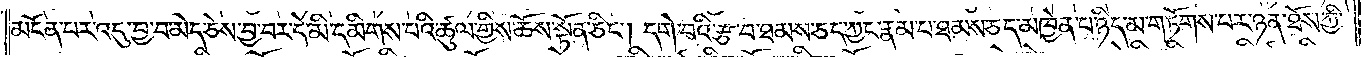མངོན་པར་འདུ་བྱ་བ་མེད་ཅེས་བྱ་བར་དེ་མི་དམིགས་པའི་ཚུལ་གྱིས་ཆོས་སྟོན་ཅིང༌། དགེ་བའི་རྩ་བ་ཐམས་ཅད་ཀྱང་རྣམ་པ་ཐམས་ཅད་མཁྱེན་པ་ཉིད་མ་གཏོགས་པར་ཉན་ཐོས་ཀྱི་
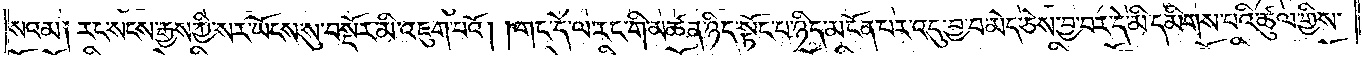སའམ༑ རང་སངས་རྒྱས་ཀྱི་སར་ཡོངས་སུ་བསྔོར་མི་འཇུག་པའོ། །གང་དེ་ལ་རང་གི་མཚན་ཉིད་སྟོང་པ་ཉིད་མངོན་པར་འདུ་བྱ་བ་མེད་ཅེས་བྱ་བར་དེ་མི་དམིགས་པའི་ཚུལ་གྱིས་
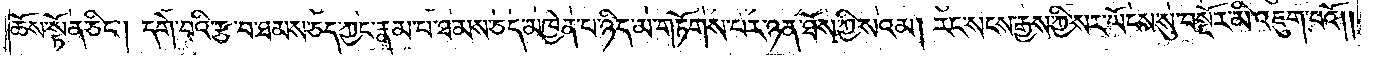ཆོས་སྟོན་ཅིང༌། དགེ་བའི་རྩ་བ་ཐམས་ཅད་ཀྱང་རྣམ་པ་ཐམས་ཅད་མཁྱེན་པ་ཉིད་མ་གཏོགས་པར་ཉན་ཐོས་ཀྱི་སའམ། རང་སངས་རྒྱས་ཀྱི་སར་ཡོངས་སུ་བསྔོར་མི་འཇུག་པའོ། །
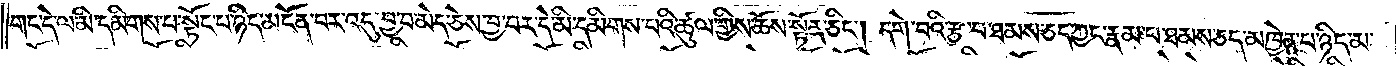གང་དེ་ལ་མི་དམིགས་པ་སྟོང་པ་ཉིད་མངོན་པར་འདུ་བྱ་བ་མེད་ཅེས་བྱ་བར་དེ་མི་དམིགས་པའི་ཚུལ་གྱིས་ཆོས་སྟོན་ཅིང༌། དགེ་བའི་རྩ་བ་ཐམས་ཅད་ཀྱང་རྣམ་པ་ཐམས་ཅད་མཁྱེན་པ་ཉིད་མ་
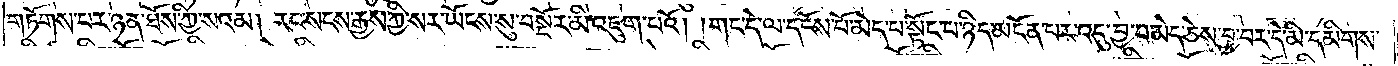གཏོགས་པར་ཉན་ཐོས་ཀྱི་སའམ། རང་སངས་རྒྱས་ཀྱི་སར་ཡོངས་སུ་བསྔོར་མི་འཇུག་པའོ། །གང་དེ་ལ་དངོས་པོ་མེད་པ་སྟོང་པ་ཉིད་མངོན་པར་འདུ་བྱ་བ་མེད་ཅེས་བྱ་བར་དེ་མི་དམིགས་
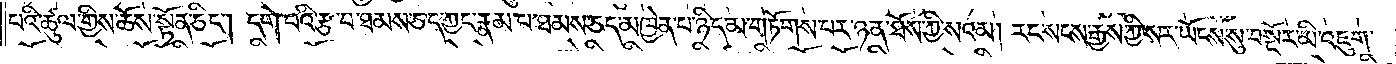པའི་ཚུལ་གྱིས་ཆོས་སྟོན་ཅིང༌། དགེ་བའི་རྩ་བ་ཐམས་ཅད་ཀྱང་རྣམ་པ་ཐམས་ཅད་མཁྱེན་པ་ཉིད་མ་གཏོགས་པར་ཉན་ཐོས་ཀྱི་སའམ། རང་སངས་རྒྱས་ཀྱི་སར་ཡོངས་སུ་བསྔོར་མི་འཇུག་
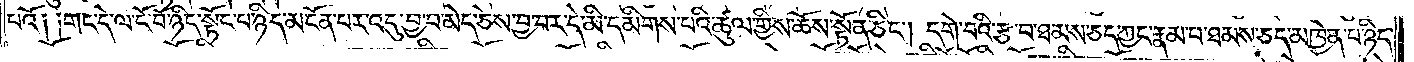པའོ༑ ༑གང་དེ་ལ་ངོ་བོ་ཉིད་སྟོང་པ་ཉིད་མངོན་པར་འདུ་བྱ་བ་མེད་ཅེས་བྱ་བར་དེ་མི་དམིགས་པའི་ཚུལ་གྱིས་ཆོས་སྟོན་ཅིང༌། དགེ་བའི་རྩ་བ་ཐམས་ཅད་ཀྱང་རྣམ་པ་ཐམས་ཅད་མཁྱེན་པ་ཉིད་
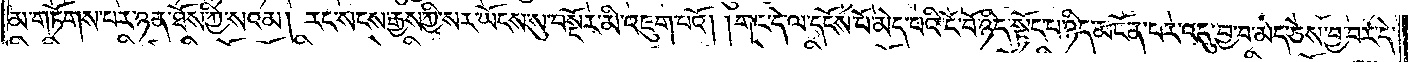མ་གཏོགས་པར་ཉན་ཐོས་ཀྱི་སའམ། རང་སངས་རྒྱས་ཀྱི་སར་ཡོངས་སུ་བསྔོར་མི་འཇུག་པའོ། །གང་དེ་ལ་དངོས་པོ་མེད་པའི་ངོ་བོ་ཉིད་སྟོང་པ་ཉིད་མངོན་པར་འདུ་བྱ་བ་མེད་ཅེས་བྱ་བར་དེ་
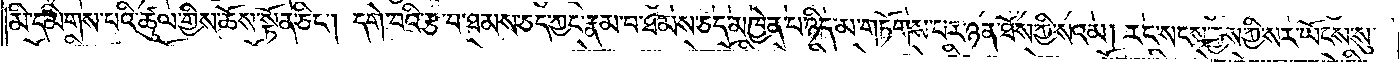མི་དམིགས་པའི་ཚུལ་གྱིས་ཆོས་སྟོན་ཅིང༌། དགེ་བའི་རྩ་བ་ཐམས་ཅད་ཀྱང་རྣམ་པ་ཐམས་ཅད་མཁྱེན་པ་ཉིད་མ་གཏོགས་པར་ཉན་ཐོས་ཀྱི་སའམ། རང་སངས་རྒྱས་ཀྱི་སར་ཡོངས་སུ་
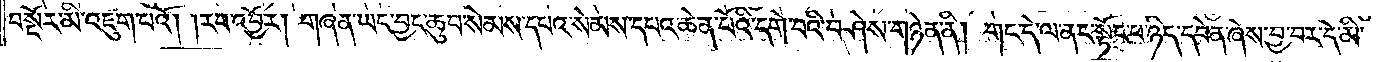བསྔོར་མི་འཇུག་པའོ། །རབ་འབྱོར། གཞན་ཡང་བྱང་ཆུབ་སེམས་དཔའ་སེམས་དཔའ་ཆེན་པོའི་དགེ་བའི་བཤེས་གཉེན་ནི། གང་དེ་ལ་ནང་སྟོང་པ་ཉིད་དབེན་ཞེས་བྱ་བར་དེ་མི་
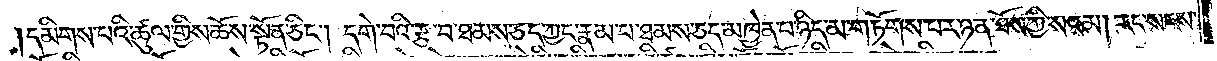དམིགས་པའི་ཚུལ་གྱིས་ཆོས་སྟོན་ཅིང༌། དགེ་བའི་རྩ་བ་ཐམས་ཅད་ཀྱང་རྣམ་པ་ཐམས་ཅད་མཁྱེན་པ་ཉིད་མ་གཏོགས་པར་ཉན་ཐོས་ཀྱི་སའམ། རང་སངས་
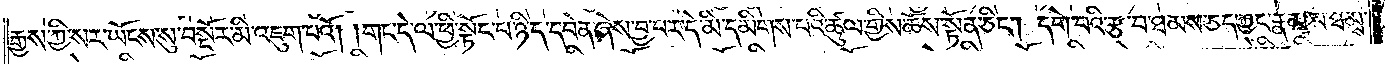རྒྱས་ཀྱི་སར་ཡོངས་སུ་བསྔོར་མི་འཇུག་པའོ། །གང་དེ་ལ་ཕྱི་སྟོང་པ་ཉིད་དབེན་ཞེས་བྱ་བར་དེ་མི་དམིགས་པའི་ཚུལ་གྱིས་ཆོས་སྟོན་ཅིང༌། དགེ་བའི་རྩ་བ་ཐམས་ཅད་ཀྱང་རྣམ་པ་ཐམས་
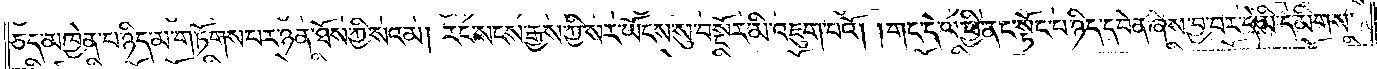ཅད་མཁྱེན་པ་ཉིད་མ་གཏོགས་པར་ཉན་ཐོས་ཀྱི་སའམ། རང་སངས་རྒྱས་ཀྱི་སར་ཡོངས་སུ་བསྔོར་མི་འཇུག་པའོ། །གང་དེ་ལ་ཕྱི་ནང་སྟོང་པ་ཉིད་དབེན་ཞེས་བྱ་བར་དེ་མི་དམིགས་
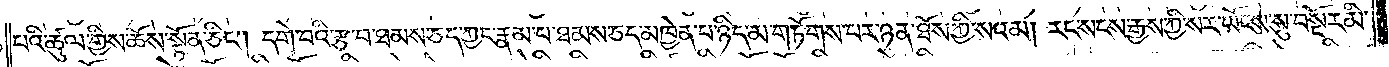པའི་ཚུལ་གྱིས་ཆོས་སྟོན་ཅིང༌། དགེ་བའི་རྩ་བ་ཐམས་ཅད་ཀྱང་རྣམ་པ་ཐམས་ཅད་མཁྱེན་པ་ཉིད་མ་གཏོགས་པར་ཉན་ཐོས་ཀྱི་སའམ། རང་སངས་རྒྱས་ཀྱི་སར་ཡོངས་སུ་བསྔོར་མི་
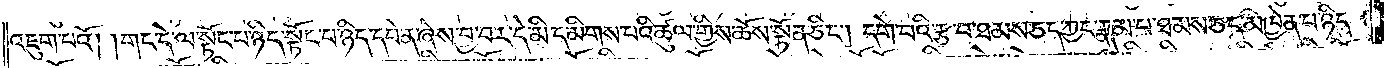འཇུག་པའོ། །གང་དེ་ལ་སྟོང་པ་ཉིད་སྟོང་པ་ཉིད་དབེན་ཞེས་བྱ་བར་དེ་མི་དམིགས་པའི་ཚུལ་གྱིས་ཆོས་སྟོན་ཅིང༌། དགེ་བའི་རྩ་བ་ཐམས་ཅད་ཀྱང་རྣམ་པ་ཐམས་ཅད་མཁྱེན་པ་ཉིད་
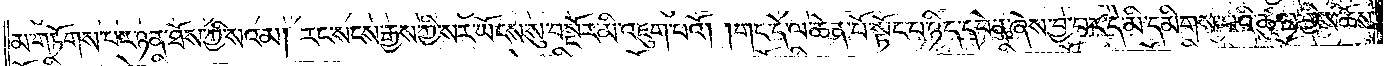མ་གཏོགས་པར་ཉན་ཐོས་ཀྱི་སའམ། རང་སངས་རྒྱས་ཀྱི་སར་ཡོངས་སུ་བསྔོར་མི་འཇུག་པའོ། །གང་དེ་ལ་ཆེན་པོ་སྟོང་པ་ཉིད་དབེན་ཞེས་བྱ་བར་དེ་མི་དམིགས་པའི་ཚུལ་གྱིས་ཆོས་
